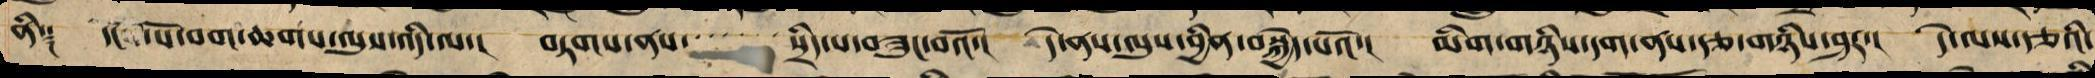ནི༑ དངོས་པོ་བག་ཆགས་ལུས་འདི་ལ་། བཏགས་ནས་་་་་་་སྲིད་པ་བཟུང་བའོ་། དེ་ནས་ལུས་བྱིན་བསྐྱེད་པའོ་། མིག་གཉིས་དག་ནས་རྩ་གཉིས་ཤར་། དེ་ལས་རྩའི་
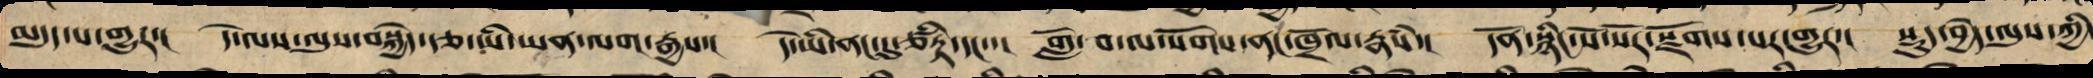མདུད་པར་གྱུར་། དེ་ལས་ལུས་བསྐྱེད་རྩ་ཡིས་ཡན་ལག་རྒྱས་། དེ་ཡི་ནང་དུ་ཙིཏྟ་དང་་། གློ་བ་ལ་སོགས་ནང་ཁྲོལ་རྣཾས་། དོན་སྙིང་སོ་སོར་སྫོགས་པར་གྱུར་། སྡུད་བྱེད་ལུས་ཀྱི་
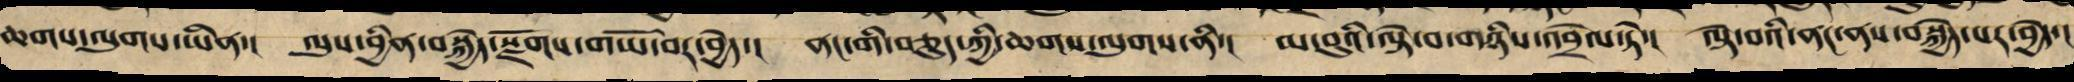ཆགས་ལུགས་ཡིན་། ལུས་བྱིན་བསྐྱེད་སྫོགས་གཡོ་བར་བྱེད་། ནང་གི་བཅུད་ཀྱི་ཆགས་ལུགས་ནི་། མ་བུའི་ལྟེ་བ་གཉིས་འབྲེལ་ཏེ་། ལྟེ་བའི་ནང་ནས་བསྐྱེད་པར་བྱེད་།
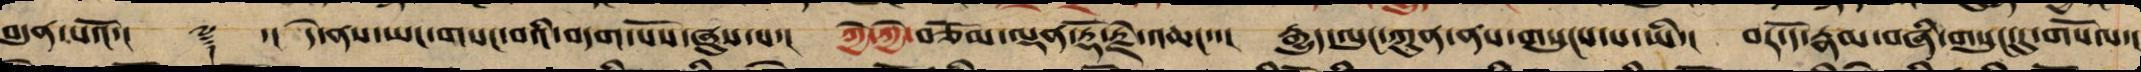བདུན་པའོ་། ༈ ་། དེ་ནས་ཡང་གསང་བའི་བདག་པོས་ཞུས་པ་། ཀྱེ་ཀྱེ་བཅོམ་ལྡན་རྡོ་རྗེ་འཆང་་། རྒྱུད་ལུང་ཀུན་ནས་གསུངས་པ་ཡི་། བར་དོ་རྣམ་བཞི་གསུང་དུ་གསོལ་།
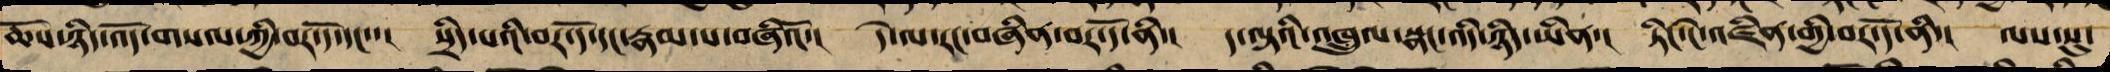ཆོས་ཉིད་འོད་གསལ་ཀྱི་བར་དོ་དང་་། སྲིད་པའི་བར་དོ་དང་རྣམ་པ་བཞིའོ་། དེ་ལ་རང་བཞིན་བར་དོ་ནི་། ད་ལྟའི་འཁྲུལ་སྣང་འདི་ཉིད་ཡིན་། ཏིང་ངེ་འཛིན་གྱི་བར་དོ་ནི་། ལས་སུ་
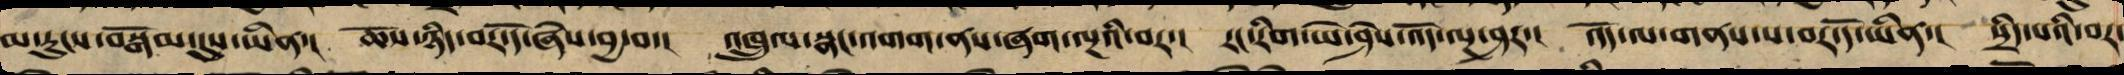མ་རུངས་བསྒོམ་དུས་ཡིན་། ཆོས་ཉིད་བར་དོ་ཞེས་བྱ་བ་། འཁྲུལ་སྣང་འགགས་ནས་ཞག་ལྔའི་བར་། རང་རིག་ཡེ་ཤེས་འོད་ལྔ་ཤར་། འོད་ལ་གནས་པ་བར་དོ་ཡིན་། སྲིད་པའི་བར་
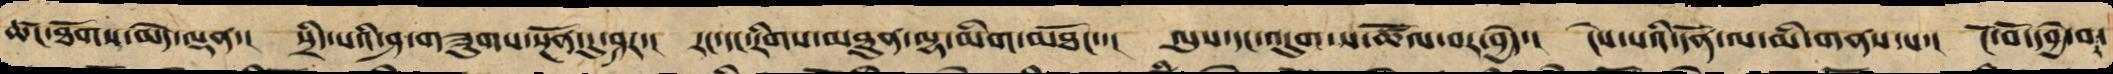ཚང་ཐོགས་མེད་ལྡན་། སྲིད་པའི་ཤ་གཟུགས་སྔོན་དུ་ཤར་། རང་དང་རིགས་མཐུན་ལྷ་མིག་མཐོང་་། ལུས་དང་འདུག་ས་ཚོལ་བར་བྱེད་། ངེས་པའི་དོན་ལ་མི་གནས་པ་། ངོ་བོ་དབྱེ་བ་
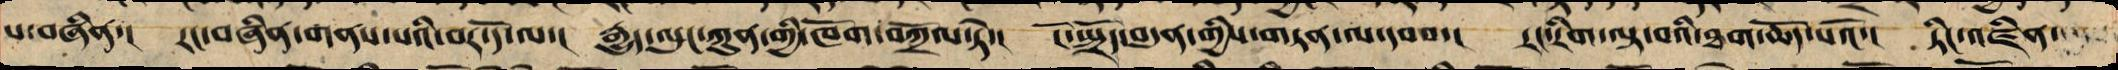ས་བཞིན་། རང་བཞིན་གནས་པའི་བར་དོ་ལ་། རྒྱུད་ལུང་ཀུན་གྱི་ཁོག་བཀྲོལ་ཏེ་། ངོ་སྤྲོད་བདུན་གྱིས་གཏན་ལ་དབབ་། རང་རིག་ལྟ་བའི་ཐག་ཆོད་པའོ་། ཏིང་འཛིན་
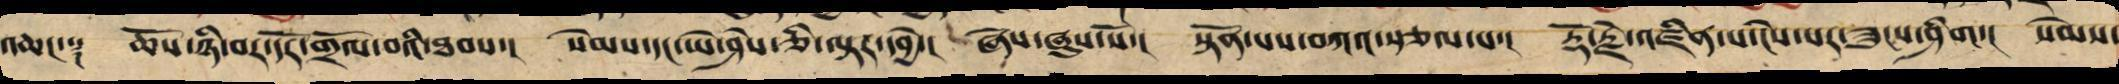འཆང་༑ ཆོས་ཉིད་བར་དོར་གྲོལ་བའི་ཐབས་། སེམས་དང་ཡེ་ཤེས་ཅི་ལྟར་དབྱེ་། ཞེས་ཞུས་སོ་། སྟོན་པས་བཀའ་སྩལ་པ་། རྡོ་རྗེ་འཛིན་པ་ངེས་པར་ཟུངས་ཤིག་། སེམས་
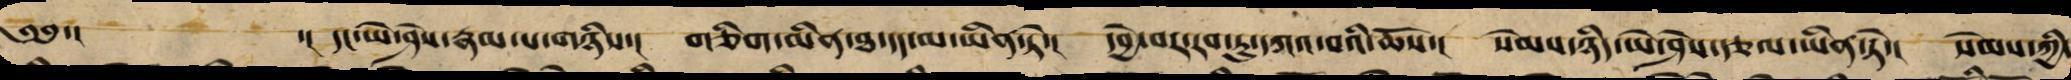༄༅་། ་། དང་ཡེ་ཤེས་རྣམ་པ་གཉིས་། གཅིག་མིན་ཐ་དད་མ་ཡིན་ཏེ་། དབྱེ་བ་རབ་ཏུ་དཀའ་བའི་ཆོས་། སེམས་ཉིད་ཡེ་ཤེས་རྩལ་ཡིན་ཏེ་། སེམས་ཀྱི་
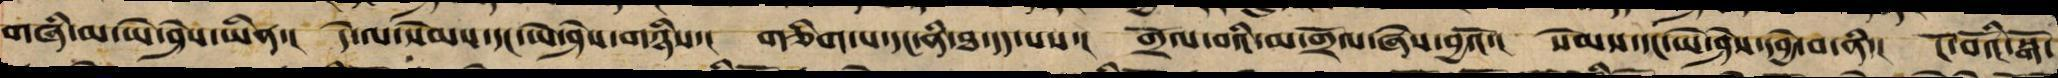གཞི་མ་ཡེ་ཤེས་ཡིན་། དེ་ལ་སེམས་དང་ཡེ་ཤེས་གཉིས་། གཅིག་པ་དང་ནི་ཐ་དད་པས་། གྲོལ་བའི་མ་གྲོལ་ཞེས་བྱའོ་། སེམས་དང་ཡེ་ཤེས་དབྱེ་བ་ནི་། ངོ་བོའི་སྒོ་
